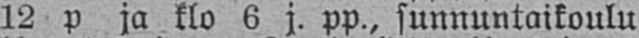12 p ja klo 6 j. pp., sunnuntaikoulu
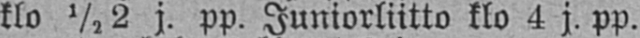klo ½ 2 j. pp. Juniorliitto klo 4 j. pp.
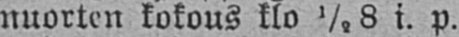nuorten kokous klo ½ 8 i. p.
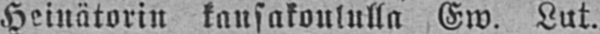Heinätorin kansakoululla Ew. Lut.
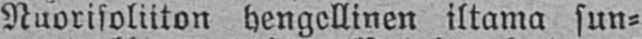Nuorisoliiton hengellinen iltama sun-
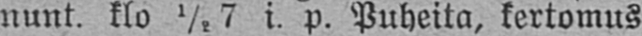nunt. klo ½ 7 i. p. Puheita, kertomus
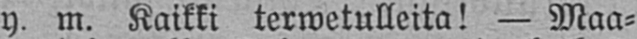y. m. Kaikki terwetulleita! — Maa-
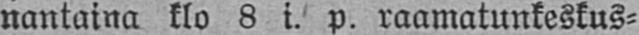nantaina klo 8 i. p. raamatunkeskus-
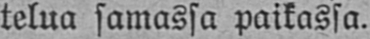telua samassa paikassa.
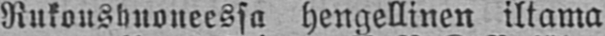Rukoushuoneessa hengellinen iltama
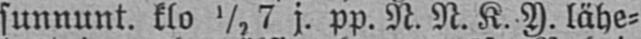sunnunt. klo ½ 7 j. pp. N. N. K. Y. lähe-
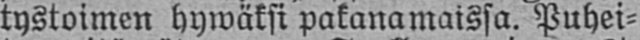tystoimen hywäksi pakanamaissa. Puhei-
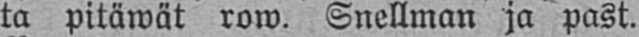ta pitäwät row. Snellman ja past.
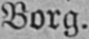Borg.
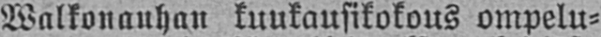Walkonauhan kuukausikokous ompelu-
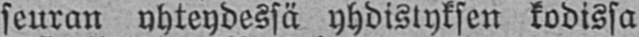seuran yhteydessä yhdistyksen kodissa
